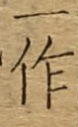一作
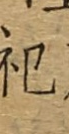祀
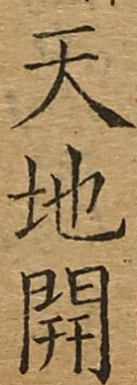天地開
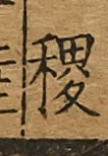稷
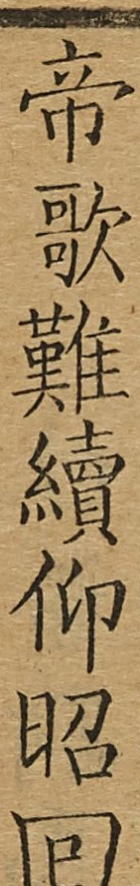帝歌難續仰昭回
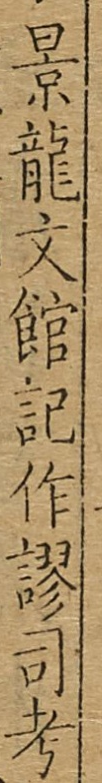景龍文館記作謬司考
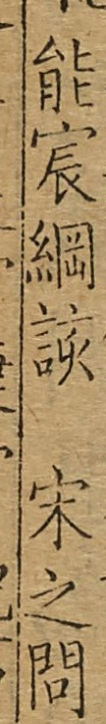能宸綱該宋之問
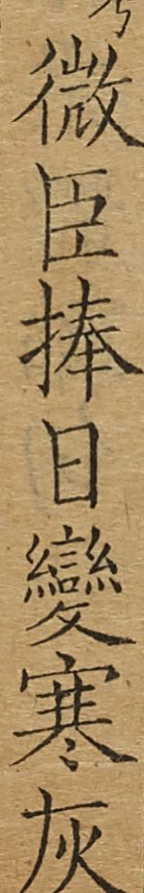微臣捧日變寒灰
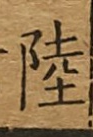陸
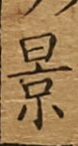景
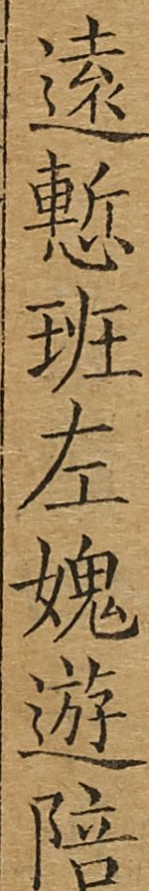遠慚班左愧遊陪
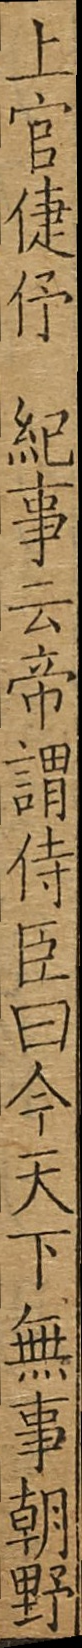上官倢伃記事云帝謂侍臣曰今天無事朝野
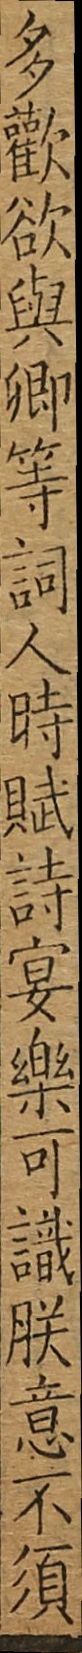多歡慾與卿等詞人時賦詩宴樂可識朕意不須
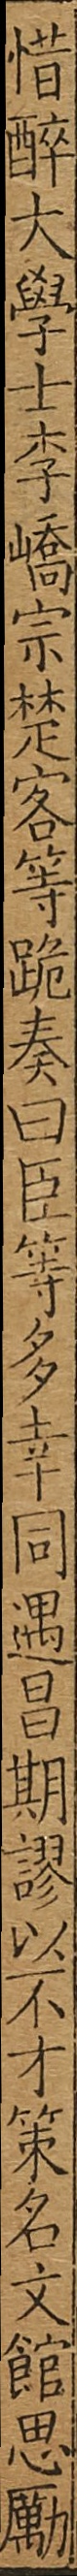惜醉大學士李嶠宗楚客等跪奏曰臣等多幸同遇昌期謬以不才策名文館思勵
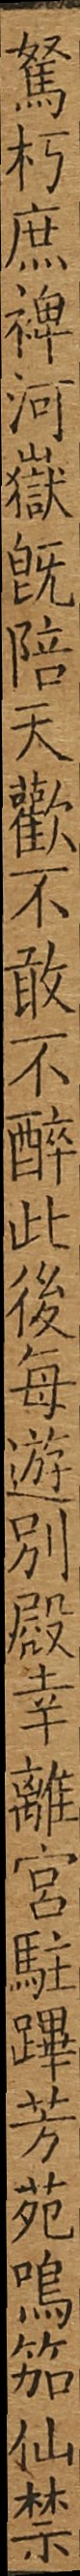駑朽庶裨河嶽旣陪天歡不敢不醉此後每遊別殿幸離宮駐蹕芳苑嗎笳仙禁
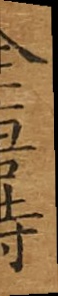全唐詩
